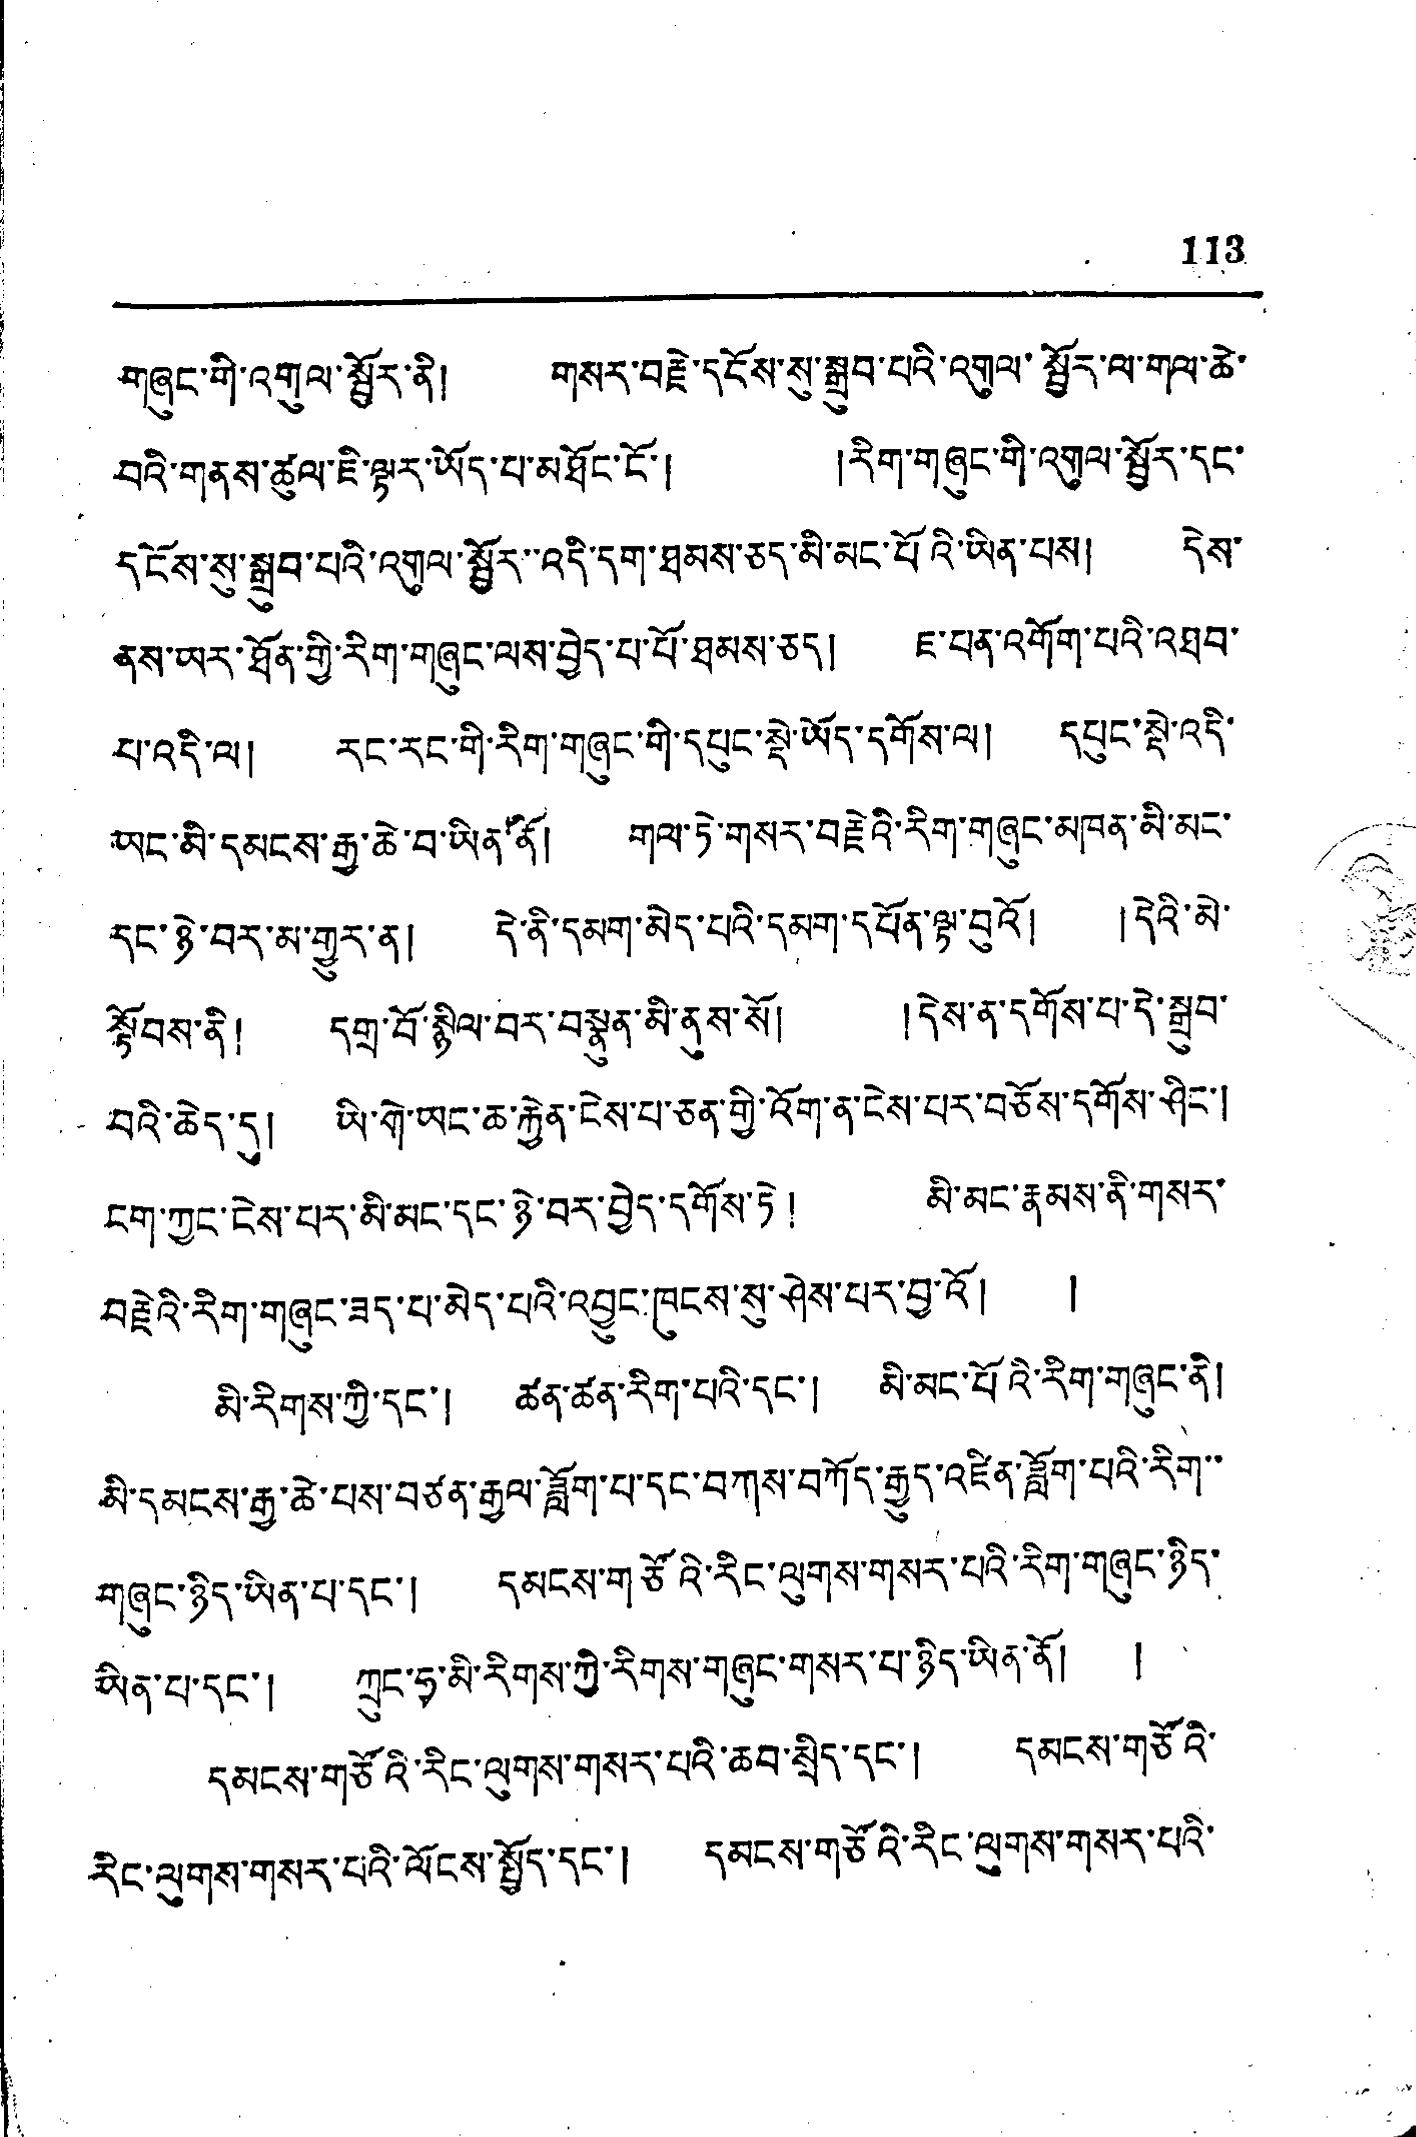113
གཞུང་གི་འགུལ་སྦྱོར་ནི། གསར་བརྗེ་དངོས་སུ་སྒྲུབ་པའི་འགུལ་སྦྱོར་ལ་གལ་ཆེ་
བའི་གནས་ཚུལ་ཇི་ལྟར་ཡོད་པ་མཐོང་ངོ་། །རིག་གཞུང་གི་འགུལ་སྦྱོར་དང་
དངོས་སུ་སྒྲུབ་པའི་འགུལ་སྦྱོར་འདི་དག་ཐམས་ཅད་མི་མང་པོའི་ཡིན་པས། དེས་
ནས་ཡར་ཐོན་གྱི་རིག་གཞུང་ལས་བྱེད་པ་པོ་ཐམས་ཅད། ཇ་པན་འགོག་པའི་འཐབ་
པ་འདི་ལ། རང་རང་གི་རིག་གཞུང་གི་དཔུང་སྡེ་ཡོད་དགོས་ལ། དཔུང་སྡེ་འདི་
ཡང་མི་དམངས་རྒྱ་ཆེ་བ་ཡིན་ནོ། གལ་ཏེ་གསར་བརྗེའི་རིག་གཞུང་མཁན་མི་མང་
དང་ཉེ་བར་མ་གྱུར་ན། དེ་ནི་དམག་མེད་པའི་དམག་དཔོན་ལྟ་བུའོ། །དེའི་མེ་
སྟོབས་ནི། དགྲ་བོ་སྙིལ་བར་བསྣུན་མི་ནུས་སོ། །དེས་ན་དགོས་པ་དེ་སྒྲུབ་
བའི་ཆེད་དུ། ཡི་གེ་ཡང་ཆ་རྐྱེན་ངེས་པ་ཅན་གྱི་འོག་ན་ངེས་པར་བཅོས་དགོས་ཤིང་།
ངག་ཀྱང་ངེས་པར་མི་མང་དང་ཉེ་བར་བྱེད་དགོས་ཏེ ། མི་མང་རྣམས་ནི་གསར་
བརྗེའི་རིག་གཞུང་ཟད་པ་མེད་པའི་འབྱུང་ཁུངས་སུ་ཤེས་པར་བྱ་འོ། །
མི་རིགས་ཀྱི་དང་། ཚན་ཚན་རིག་པའི་དང་། མི་མང་པོའི་རིག་གཞུང་ནི།
མི་དམངས་རྒྱ་ཆེ་པས་བཙན་རྒྱལ་ཟློག་པ་དང་བཀས་བཀོད་རྒྱུད་འཛིན་ཟློག་པའི་རིག་་
གཞུང་ཉིད་ཡིན་པ་དང་། དམངས་གཙོའི་རིང་ལུགས་གསར་པའི་རིག་གཞུང་ཉིད་
ཡིན་པ་དང་། ཀྲུང་ཧྭ་མི་རིགས་ཀྱི་རིགས་གཞུང་གསར་པ་ཉིད་ཡིན་ནོ། །
དམངས་གཙོའི་རིང་ལུགས་གསར་པའི་ཆབ་སྲིད་དང་། དམངས་གཙོའི་
རིང་ལུགས་གསར་པའི་ལོངས་སྤྱོད་དང་། དམངས་གཙོའི་རིང་ལུགས་གསར་པའི་
